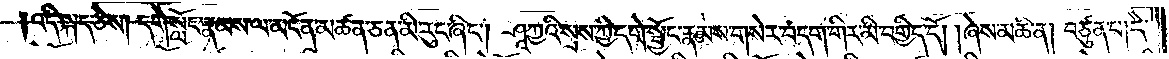འདི་སྐད་ཅེས། དགེ་སློང་རྣམས་ལ་མངོན་མཚན་ཅན་མི་རུང་ཞིང༌། ཤཱཀྱའི་སྲས་ཀྱི་དགེ་སྦྱོང་རྣམས་གསེར་བདག་གིར་མི་བགྱིད་དོ། །ཞེས་མཆི་ན། བཙུན་པ། དེ་
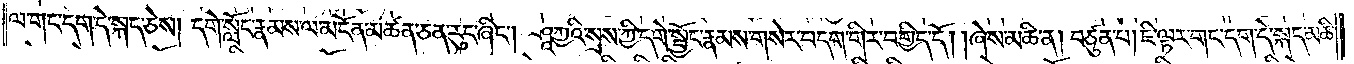ལ་གང་དག་དེ་སྐད་ཅེས། དགེ་སློང་རྣམས་ལ་མངོན་མཚན་ཅན་རུང་ཞིང༌། ཤཱཀྱའི་སྲས་ཀྱི་དགེ་སྦྱོང་རྣམས་གསེར་བདག་གིར་བགྱིད་དོ། །ཞེས་མཆི་ན། བཙུན་པ། ཇི་ལྟར་གང་དག་དེ་སྐད་མཆི་
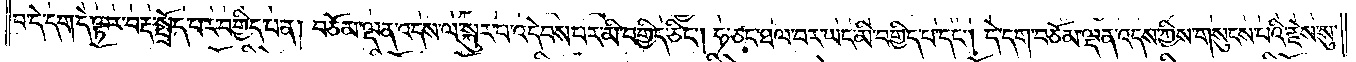བ་དེ་དག་དེ་ལྟར་བརྡ་སྤྲོད་པར་བགྱིད་པ་ན། བཅོམ་ལྡན་འདས་ལ་སྐུར་བ་འདེབས་པར་མི་བགྱིད་ཅིང༌། ཧ་ཅང་ཐལ་བར་ཡང་མི་བགྱིད་པ་དང༌། དེ་དག་བཅོམ་ལྡན་འདས་ཀྱིས་གསུངས་པའི་རྗེས་སུ་
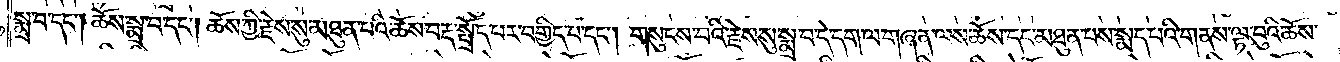སྨྲ་བ་དང༌། ཆོས་སྨྲ་བ་དང༌། ཆོས་ཀྱི་རྗེས་སུ་མཐུན་པའི་ཆོས་བརྡ་སྤྲོད་པར་བགྱིད་པ་དང༌། གསུངས་པའི་རྗེས་སུ་སྨྲ་བ་དེ་དག་ལ་གཞན་ལས་ཆོས་དང་མཐུན་པས་སྨད་པའི་གནས་ལྟ་བུའི་ཆོས་
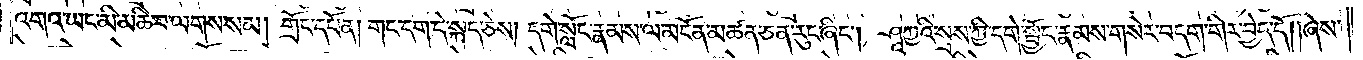འགའ་ཡང་མི་མཆི་བ་ལགས་སམ། གྲོང་དཔོན། གང་དག་དེ་སྐད་ཅེས། དགེ་སློང་རྣམས་ལ་མངོན་མཚན་ཅན་རུང་ཞིང༌། ཤཱཀྱའི་སྲས་ཀྱི་དགེ་སྦྱོང་རྣམས་གསེར་བདག་གིར་བྱེད་དོ༎ཞེས་
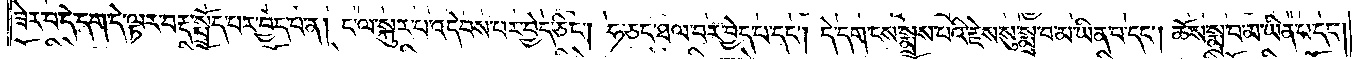ཟེར་བ་དེ་དག་དེ་ལྟར་བརྡ་སྤྲོད་པར་བྱེད་པ་ན། ང་ལ་སྐུར་བ་འདེབས་པར་བྱེད་ཅིང༌། ཧ་ཅང་ཐལ་བར་བྱེད་པ་དང༌། དེ་དག་ངས་སྨྲས་པའི་རྗེས་སུ་སྨྲ་བ་མ་ཡིན་པ་དང༌། ཆོས་སྨྲ་བ་མ་ཡིན་པ་དང༌།
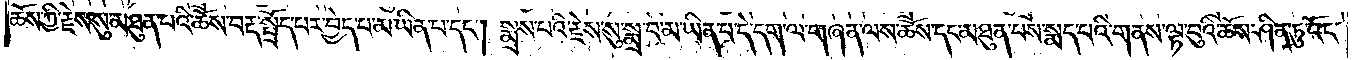ཆོས་ཀྱི་རྗེས་སུ་མཐུན་པའི་ཆོས་བརྡ་སྤྲོད་པར་བྱེད་པ་མ་ཡིན་པ་དང༌། སྨྲས་པའི་རྗེས་སུ་སྨྲ་བ་མ་ཡིན་པ་དེ་དག་ལ་གཞན་ལས་ཆོས་དང་མཐུན་པས་སྨད་པའི་གནས་ལྟ་བུའི་ཆོས་ཤིན་ཏུ་འོང་
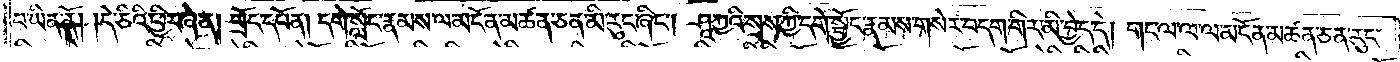བ་ཡིན་ནོ། །དེ་ཅིའི་ཕྱིར་ཞེ་ན། གྲོང་དཔོན། དགེ་སློང་རྣམས་ལ་མངོན་མཚན་ཅན་མི་རུང་ཞིང༌། ཤཱཀྱའི་སྲས་ཀྱི་དགེ་སྦྱོང་རྣམས་གསེར་བདག་གིར་མི་བྱེད་དེ། གང་ལ་ལ་ལ་མངོན་མཚན་ཅན་རུང་
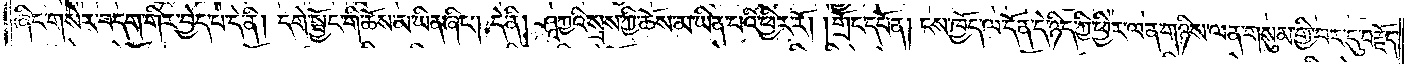ཞིང་གསེར་བདག་གིར་བྱེད་པ་དེ་ནི། དགེ་སྦྱོང་གི་ཆོས་མ་ཡིན་ཞིང༌། དེ་ནི། ཤཱཀྱའི་སྲས་ཀྱི་ཆོས་མ་ཡིན་པའི་ཕྱིར་རོ། །གྲོང་དཔོན། ངས་ཁྱོད་ལ་དོན་དེ་ཉིད་ཀྱི་ཕྱིར་ལན་གཉིས་ལན་གསུམ་གྱི་བར་དུ་བརྗོད་
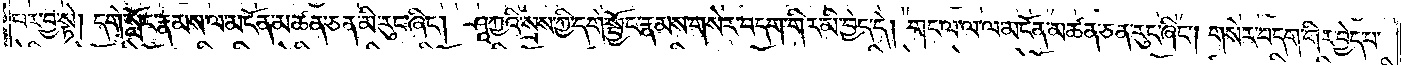པར་བྱ་སྟེ། དགེ་སློང་རྣམས་ལ་མངོན་མཚན་ཅན་མི་རུང་ཞིང༌། ཤཱཀྱའི་སྲས་ཀྱི་དགེ་སྦྱོང་རྣམས་གསེར་བདག་གིར་མི་བྱེད་དེ། གང་ལ་ལ་ལ་མངོན་མཚན་ཅན་རུང་ཞིང༌། གསར་བདག་གིར་བྱེད་པ་
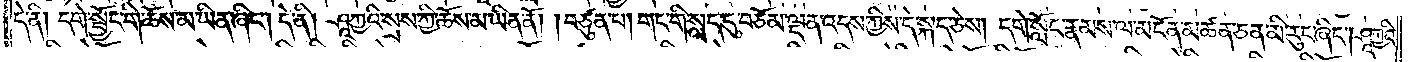དེ་ནི། དགེ་སྦྱོང་གི་ཆོས་མ་ཡིན་ཞིང༌། དེ་ནི། ཤཱཀྱའི་སྲས་ཀྱི་ཆོས་མ་ཡིན་ནོ། །བཙུན་པ། གང་གི་སླད་དུ་བཅོམ་ལྡན་འདས་ཀྱིས་དེ་སྐད་ཅེས། དགེ་སློང་རྣམས་ལ་མངོན་མཚན་ཅན་མི་རུང་ཞིང༌། ཤཱཀྱའི་
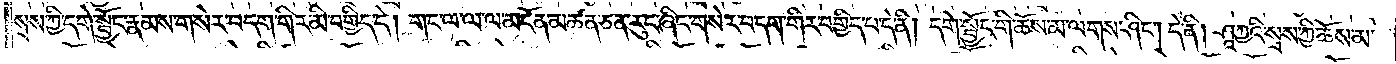སྲས་ཀྱི་དགེ་སྦྱོང་རྣམས་གསེར་བདག་གིར་མི་བགྱིད་དེ། གང་ལ་ལ་མངོན་མཚན་ཅན་རུང་ཞིང་གསེར་བདག་གིར་བགྱིད་པ་དེ་ནི། དགེ་སྦྱོང་གི་ཆོས་མ་ལགས་ཤིང༌། དེ་ནི། ཤཱཀྱའི་སྲས་ཀྱི་ཆོས་མ་
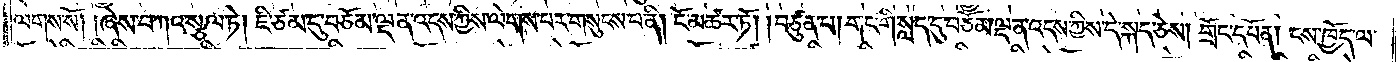ལགས་སོ། །ཞེས་བཀའ་སྩལ་ཏེ། ཇི་ཙམ་དུ་བཅོམ་ལྡན་འདས་ཀྱིས་ལེགས་པར་གསུངས་པ་ནི། ངོ་མཚར་ཏོ། །བཙུན་པ། གང་གི་སླད་དུ་བཅོམ་ལྡན་འདས་ཀྱིས་དེ་སྐད་ཅེས། གྲོང་དཔོན། ངས་ཁྱོད་ལ་
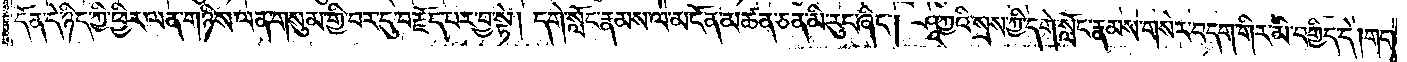དོན་དེ་ཉིད་ཀྱི་ཕྱིར་ལན་གཉིས་ལན་གསུམ་གྱི་བར་དུ་བརྗོད་པར་བྱ་སྟེ། དགེ་སློང་རྣམས་ལ་མངོན་མཚན་ཅན་མི་རུང་ཞིང༌། ཤཱཀྱའི་སྲས་ཀྱི་དགེ་སློང་རྣམས་གསེར་བདག་གིར་མི་བགྱིད་དེ། གང་
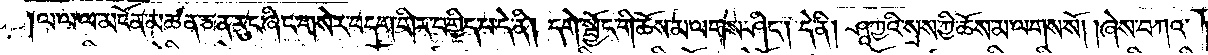ལ་ལ་ལ་མངོན་མཚན་ཅན་རུང་ཞིང་གསེར་བདག་གིར་བགྱིད་པ་དེ་ནི། དགེ་སྦྱོང་གི་ཆོས་མ་ལགས་ཤིང༌། དེ་ནི། ཤཱཀྱའི་སྲས་ཀྱི་ཆོས་མ་ལགས་སོ། །ཞེས་བཀའ་
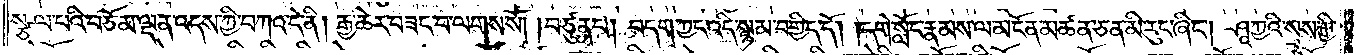སྩལ་པའི་བཅོམ་ལྡན་འདས་ཀྱི་བཀའ་དེ་ནི། རྒྱ་ཆེར་བཟང་བ་ལགས་སོ། །བཙུན་པ། བདག་ཀྱང་འདི་སྙམ་བགྱིད་དོ། །དགེ་སློང་རྣམས་ལ་མངོན་མཚན་ཅན་མི་རུང་ཞིང༌། ཤཱཀྱའི་སྲས་ཀྱི་
